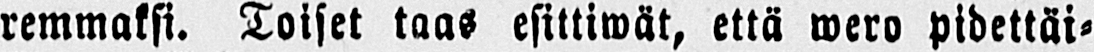remmaksi. Toiset taas esittiwät, että wero pidettäi-
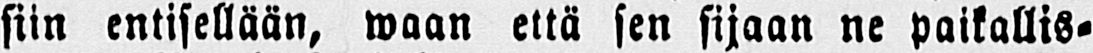siin entisellään, waan että sen sijaan ne paikallis-
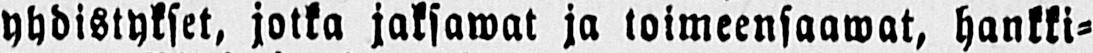yhdistykset, jotka jaksawat ja toimeensaawat, hankki-
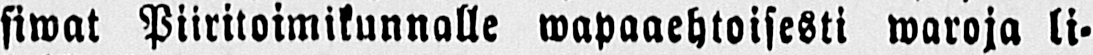siwat Piiritoimikunnalle wapaaehtoisesti waroja li-
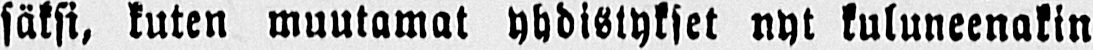säksi, kuten muutamat yhdistykset nyt kuluneenakin
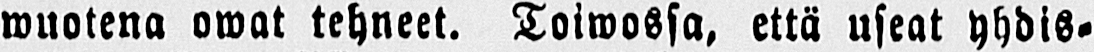wotena owat tehneet. Toiwossa, että useat yhdis-
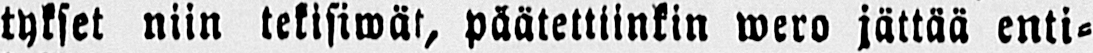tykset niin tekisiwät, päätettiinkin wero jättää enti-
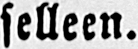selleen.
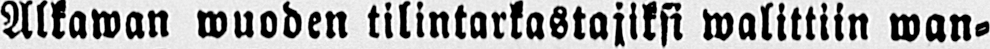Alkawan wuoden tilintarkastajiksi walittiin wan-
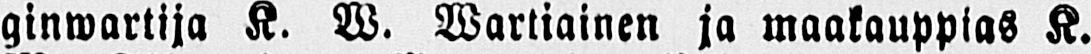ginwartija K. W. Wartiainen ja maakauppias K.
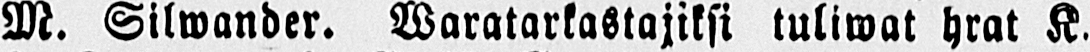M. Silwander. Waratarkastajiksi tuliwat hrat K.
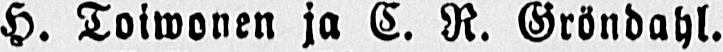H. Toiwonen ja C. R. Gröndahl.
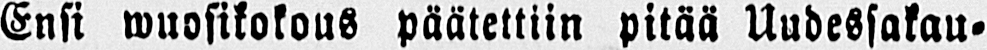Ensi wuosikokous päätettiin pitää Uudessakau-
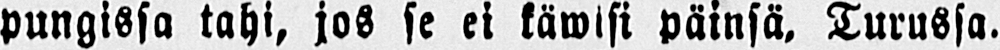pungissa tahi, jos se ei käwisi päinsä. Turussa.
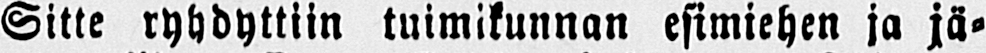Sitte ryhdyttiin tuimikunnan esimiehen ja jä-
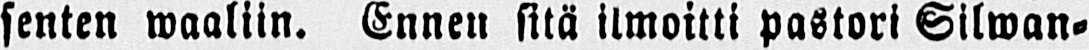senten waaliin. Ennen sitä ilmoitti pastori Silwan-
